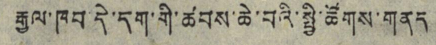རྒྱལ་ཁབ་དེ་དག་གི་ཚབས་ཆེ་བའི་སྤྱི་ཚོགས་གནད
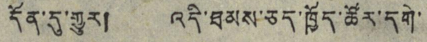དོན་དུ་གྱུར། འདི་ཐམས་ཅད་ཁྱོད་ཚོར་དགེ་
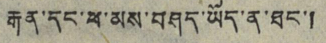རྒན་དང་ཕ་མས་བཤད་ཡོད་ན་ཐང་།
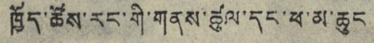ཁྱོད་ཚོས་རང་གི་གནས་ཚུལ་དང་ཕ་མ་ཆུང
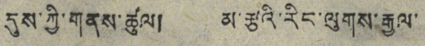དུས་ཀྱི་གནས་ཚུལ། མ་རྩའི་རིང་ལུགས་རྒྱལ་
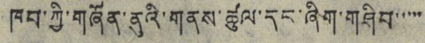ཁབ་ཀྱི་གཞོན་ནུའི་གནས་ཚུལ་དང་ཞིག་གཤིབ་་་་་
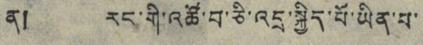ན། རང་གི་འཚོ་བ་ཅི་འདྲ་སྐྱིད་པོ་ཡིན་པ་
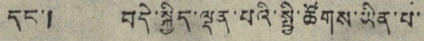དང་། བདེ་སྐྱིད་ལྡན་པའི་སྤྱི་ཚོགས་ཡིན་པ་
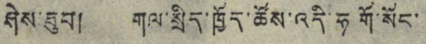ཤེས་ཐུབ། གལ་སྲིད་ཁྱོད་ཚོས་འདི་ཧ གོ་སོང་
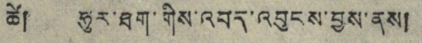ཚེ། ཧུར་ཐག་གིས་འབད་འབུངས་བྱས་ནས།
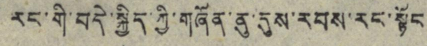རང་གི་བདེ་སྐྱིད་ཀྱི་གཞོན་ནུ་དུས་རབས་རང་སྟོང
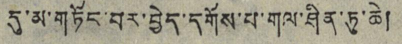དུ་མ་གཏོང་བར་བྱེད་དགོས་པ་གལ་ཤིན་ཏུ་ཆེ།
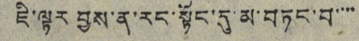ཇི་ལྟར བྱས་ན་རང་སྟོང་དུ་མ་བཏང་བ་་་་
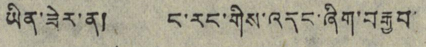ཡིན་ཟེར་ན། ང་རང་གིས་འདང་ཞིག་བརྒྱབ་
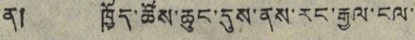ན། ཁྱོད་ཚོས་ཆུང་དུས་ནས་རང་རྒྱལ་ངལ་
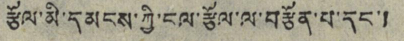རྩོལ་མི་དམངས་ཀྱི་ངལ་རྩོལ་ལ་བརྩོན་པ་དང་།
